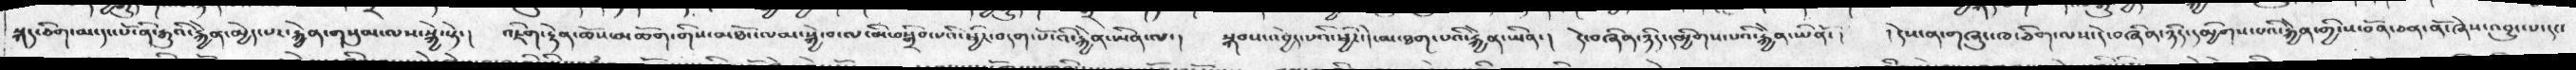སྐད་ཅིག་མ་དང་པོ་ནི་རྒྱུའི་རྐྱེན་མྱེད་པར་རྐྱེན་གསུམ་ལས་སྐྱེ་སྟེ་།  འཇིག་རྟེན་ཆོས་མཆོག་གིས་མཐོང་ལམ་སྐྱེ་བ་ལ་མི་བསྒྲིབ་པའི་ཕྱིར་བདག་པོ་འི་རྐྱེན་ཡིན་ལ་།  སྐབས་འབྱེད་པའི་ཕྱིར་དེ་མ་ཐག་པའི་རྐྱེན་ཡིན་།  དེ་བཞིན་ཉིད་དམྱིགས་པའི་རྐྱེན་ཡིནོ་།    །དེས་ན་གཞུང་ཁ་ཅིག་ལས་དེ་བཞིན་ཉིད་དམྱིགས་པའི་རྐྱེན་གྱི་ས་བོན་ཅན་ནོ་ཞེས་འབྱུང་པ་དང་
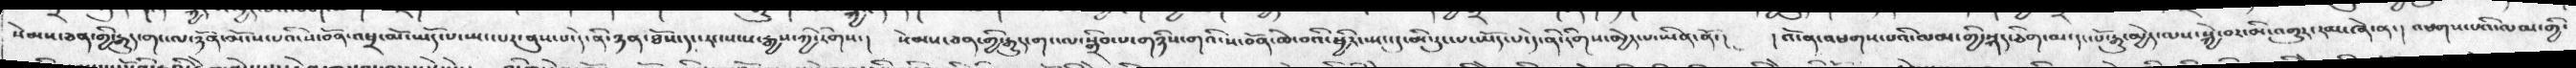སེམས་ཅན་གྱི་རྒྱུད་གང་ལ་ཉོན་མོངས་པའི་ས་བོན་འཕྲ་མོ་ཡོད་པ་སྤང་པར་ནུས་པ་དེ་ན་ཉན་ཐོས་དང་རང་སངས་རྒྱས་ཀྱི་རིགས་། སེམས་ཅན་གྱི་རྒྱུད་གང་ལ་སྒྲིབ་པ་གཉིས་གའི་ས་བོན་ཆེ་བའི་ཕྱིར་སྤང་དུ་མི་རུང་པ་ཡོད་པ་དེ་ན་རིགས་མྱེད་པ་ཡིན་ནོ་།  ། འོ་ན་འཕགས་པའི་ལམ་གྱི་སྐད་ཅིག་མ་དང་པོ་རྒྱུ་མྱེད་ལས་སྐྱེ་བར་མི་འགྱུར་རམ་ཞེ་ན་།  འཕགས་པའི་ལམ་གྱི་
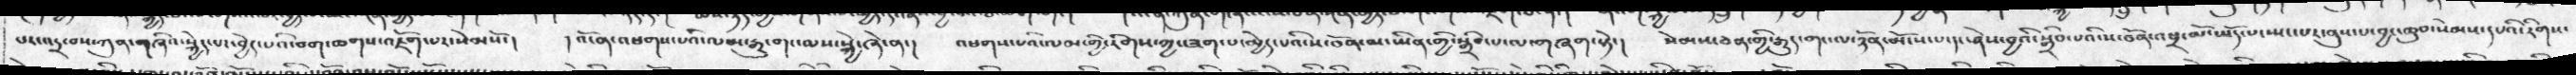པར་འདྲ་བས་ཀུན་གཞིའ་སྐྱེད་པར་བྱེད་པའི་བག་ཆགས་འཇོག་པར་སེམསོ་།  ། འོ་ན་འཕགས་པའི་ལམ་རྒྱུ་གང་ལས་སྐྱེ་ཞེ་ན་།  འཕགས་པའི་ལམ་གྱི་རིགས་ཀྱང་ཟག་པ་མྱེད་པའི་ས་བོན་མ་ཡིན་གྱི་སྒྲིབ་པ་ལ་གཞག་སྟེ་།  སེམས་ཅན་གྱི་རྒྱུད་གང་ལ་ཉོན་མོངས་པ་དང་ཤེས་བྱའི་སྒྲིབ་པའི་ས་བོན་འཕྲ་མོ་ཡོད་པ་སྤང་པར་ནུས་པ་བྱང་ཆུབ་སེམས་དཔའི་རིགས་
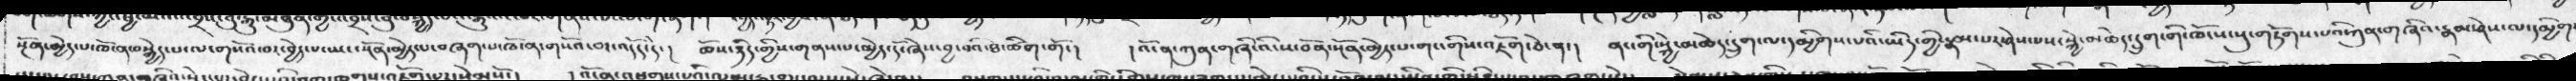སྔོན་མྱེད་པ་ཁོ་ན་བསྐྱེད་པ་ལ་གསོའ་བར་བྱེད་པ་ཡང་སྔོན་མྱེད་པ་བཞག་པ་ཁོ་ན་གསོའ་བར་འདོད་དེ་།  ཆོས་ཉིད་གྱིས་གནས་པ་མྱེད་དོ་ཞེས་བྱ་བའི་ཐ་ཚིག་གོ་།  །འོ་ན་ཀུན་གཞིའི་ས་བོན་སྔོན་མྱེད་པ་གང་གིས་འཇོག་ཅེ་ན་།  ནང་གི་སྐྱེ་མཆེད་དྲུག་ལ་དམྱིགས་པའི་ཡིད་གྱི་རྣམ་པར་ཤེས་པས་སྐྱེ་མཆེད་དྲུག་གི་ཁོངས་སུ་གཏོགས་པའི་ཀུན་གཞིའ་རྣམ་ཤེས་ལ་དམྱིག་
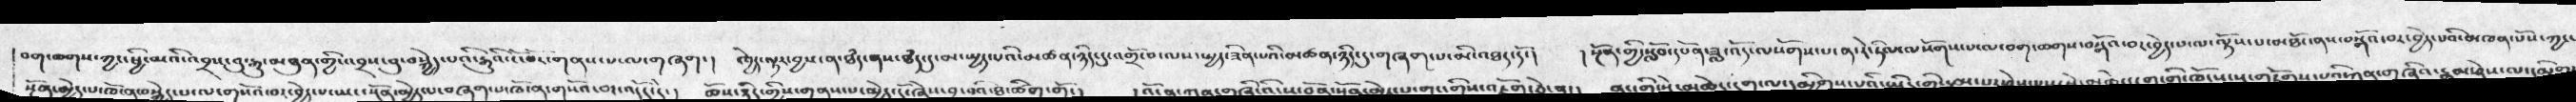བག་ཆགས་ཀྱང་ཕྱི་མའི་འབྲས་བུ་རྒྱུ་མཐུན་གྱི་འབྲས་བུ་བསྐྱེད་པའི་རྒྱུའི་ངོ་བོར་གནས་པ་ལ་གཞག་།  ཁྱེད་ལྟར་བྱས་ན་ཐཾད་ནས་ཐཾད་དུ་མ་སྤྱད་པའི་མཚན་ཉིད་དུ་འགྲོ་བ་ལས་སྤྱད་ཟིན་པའི་མཚན་ཉིད་དུ་གཞག་པ་མི་འཐད་དོ་།    ། སྔོན་གྱི་སློབ་དཔོན་ཟླ་འོད་ལསོགས་པ་ན་རེ་ཏིལ་ལསོགས་པ་ལ་བག་ཆགས་བསྒོའ་བ་ལ་ལྟོས་པ་མཐོང་ནས་བསྒོའ་བར་བྱེད་པའི་མཁན་པོས་ཀྱང་
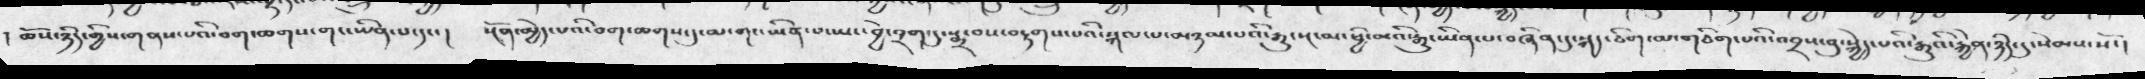།  ཆོས་ཉིད་ཀྱིས་གནས་པའི་བག་ཆགས་གང་ཡིན་པ་དང་།  སྔོན་མྱེད་པའི་བག་ཆགས་དུ་མ་གང་ཡིན་པ་ཡང་བྱེ་བྲག་དུ་སྨྲ་བས་བརྟགས་པའི་སྐལ་པ་མཉམ་པའི་རྒྱུ་སྔ་མ་ཕྱི་མའི་རྒྱུ་ཡིན་པ་བཞིན་དུ་སྐད་ཅིག་མ་གཅིག་པའི་འབྲས་བུ་སྐྱེད་པའི་རྒྱུའི་རྐྱེན་ཉིད་དུ་སེམས་སོ་།
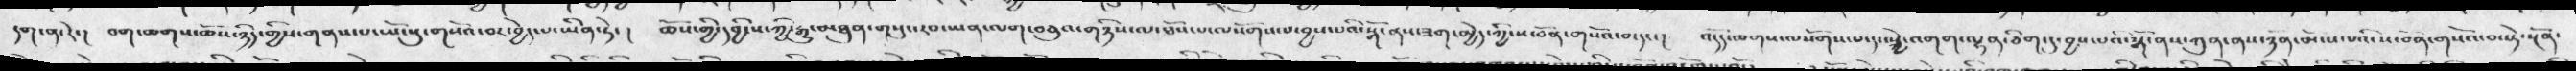དག་ན་རེ་།  བག་ཆགས་ཆོས་ཉིད་ཀྱིས་གནས་པ་ཡོངསུ་གསོའ་བར་བྱེད་པ་ཡིན་ཏེ་།  ཆོས་ཀྱི་དབྱིངས་ཀྱི་རྒྱུ་མཐུན་གསུང་རབ་ཡན་ལག་བཅུའ་གཉིས་ལ་ཐོས་པ་ལསོགས་པ་བྱས་པའི་སྒོ་ནས་ཟག་མྱེད་ཀྱི་ས་བོན་གསོའ་བ་དང་།   འདོད་ཆགས་ལསོགས་པ་དང་སྐྱེ་འགག་ལྷན་ཅིག་དུ་བྱས་པའི་སྒོ་ནས་ཀུན་ནས་ཉོན་མོངས་པའི་ས་བོན་གསོའ་བ་སྟེ་སྔོན་
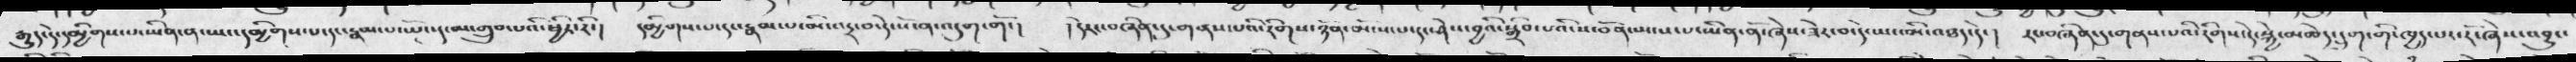རྒྱུད་དེ་དམྱིགས་པ་ཡིན་ན་ཡང་དམྱིགས་པ་དང་རྣམ་པ་ཡོངསུ་མ་གྲུབ་པའི་ཕྱིར་རོ་།  དམྱིགས་པ་དང་རྣམ་པར་མི་འདྲ་བ་དེ་སོ་ན་འདུག་གོ་།   ། དེ་རང་བཞིན་དུ་གནས་པའི་རིགས་པའི་རིགས་ཉོན་མོངས་པ་དང་ཤེས་བྱའི་སྒྲིབ་པའི་ས་བོན་སྤངས་པ་ཡིན་ནོ་ཞེས་ཟེར་བ་དེ་ཡང་མི་འཐད་དེ་།   རང་བཞིན་དུ་གནས་པའི་རིགས་དེ་སྐྱེ་མཆེད་དྲུག་གི་ཁྱད་པར་རོ་ཞེས་འབྱུང་
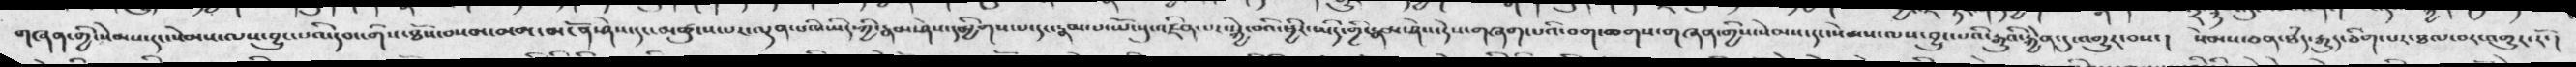གཞན་གྱི་སེམསདང་སེམས་ལས་བྱུང་པའི་དབང་གིས་ཐོས་བསམ་མམ་མངོན་ཤེས་དང་མཚུངས་པར་ལྡན་པའི་ཡིད་ཀྱི་རྣམ་ཤེས་དམྱིགས་པ་དང་རྣམ་པ་ཡོངསུ་འཛིན་པར་སྐྱེ་བའི་ཕྱིར་ཡིད་གྱི་རྣམ་ཤེས་དེས་གཞག་པའི་བག་ཆགས་གཞན་གྱིས་སེམས་དང་སེམས་ལས་བྱུང་པའི་རྒྱུའི་རྐྱེན་དུ་འགྱུར་བས་།  སེམས་ཅན་ཐཾད་རྒྱུད་ཅིག་པར་ཐལ་བར་འགྱུར་རོ་།       ༅`༹  ། ∵     ༌
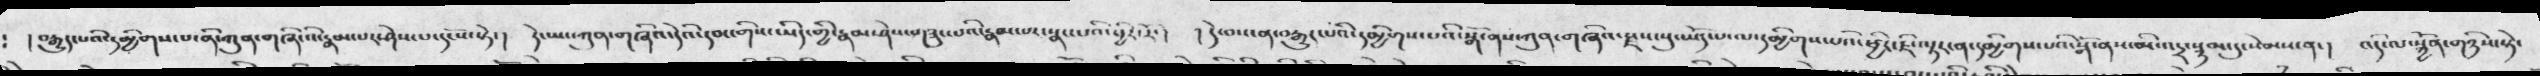།བརྒྱུད་པའི་དམྱིགས་པ་ནི་ཀུན་གཞི་འི་རྣམ་པར་ཤེས་པ་དངོས་སྟེ་།  དེ་ཡང་ཀུན་གཞིའ་དེའི་དབང་གིས་ཡིད་གྱི་རྣམ་ཤེས་གཟུང་པའི་རྣམ་པར་སྣང་པའི་ཕྱིར་རོ་།  ། དེ་བས་ན་བརྒྱུད་པའི་དམྱིགས་པའི་སྒོ་ནས་ཀུན་གཞིའ་རྫས་སུ་ཡོད་པ་ལ་དམྱིགས་པའི་ཕྱིར་ཇི་ལྟར་ན་དམྱིགས་པའི་སྒོ་ནས་མི་འདྲ་སྙམ་དུ་སེམས་ན་།  འདི་ལ་སྐྱོན་གཉིས་སྟེ་
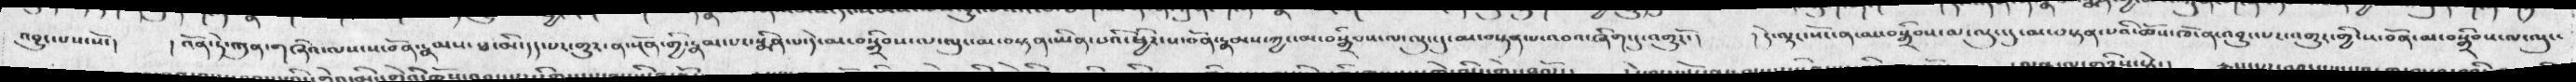འབྱུང་པས་སོ་།  ། འོན་ཏེ་ཀུན་གཞིའ་ལས་ས་བོན་རྣམས་པ་མི་དད་པར་གྱུར་ན་སྔོན་གྱི་རྣམ་པར་སྨིན་པ་དེ་མ་བསྒྲིབས་ལ་ལུང་མ་བསྟན་ཡིན་པའི་ཕྱིར་ས་བོན་རྣམས་ཀྱང་མ་བསྒྲིབས་ལ་ལུང་དུ་མ་བསྟན་པ་འབའ་ཞིག་དུ་འགྱུརོ་།  །དེ་ལྟར་སོང་ན་མ་བསྒྲིབས་མ་ལུང་དུ་མ་བསྟན་པའི་ཆོས་ཁོ་ན་འབྱུང་པར་འགྱུར་གྱི་ས་བོན་མ་བསྒྲིབས་ལ་ལུང་
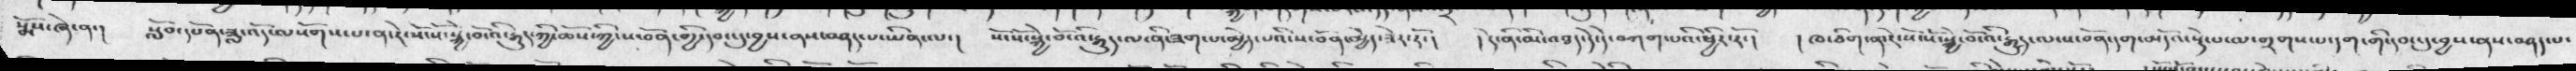སྨོས་ཞེ་ན་།   སློབ་དཔོན་ཟླ་འོད་ལསོགས་པ་ན་རེ་སོ་སོ་སྐྱེ་བོའི་རྒྱུད་ཀྱི་ཆོས་ཀྱི་ས་བོན་གྱི་དབང་དུ་བྱས་ནས་བཤད་པ་ཡིན་ལ་།  སོ་སོ་སྐྱེ་བོ་འི་རྒྱུད་ལ་ནི་ཟག་པ་མྱེད་པའི་ས་བོན་མྱེད་ཟེར་རོ་།   ། དེ་ནི་མི་འཐད་དེ་དེ་བཀག་པའི་ཕྱིར་རོ་།  ། ཁ་ཅིག་ན་རེ་སོ་སོ་སྐྱེ་བོའི་རྒྱུད་ལ་ས་བོན་དག་མདོའ་སྡེ་པ་ལ་གྲགས་པ་དག་གི་དབང་དུ་བྱས་ནས་བཤད་པ་
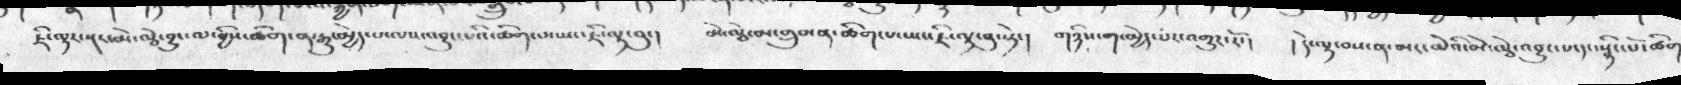ཇི་ལྟར་སྔ་མེ་ལྕེ་བྱུང་ལ་གྱིས་ཚིག་ན་རྒྱུ་མྱེད་པ་ལས་འབྱུང་པའི་ཆིག་པ་ཡང་ཇི་ལྟ་བུ་།  མེ་ལྕེ་མ་གྲུབ་ན་ཆིག་པ་ཡང་ཇི་ལྟ་བུ་སྟེ་།  གཉིས་ག་མྱེད་པར་འགྱུར་རོ་།  ། དེ་ལྟ་བས་ན་མང་ཆེའི་མེ་ལྕེ་འབྱུང་པ་དང་སྙིང་པོ་ཚིག
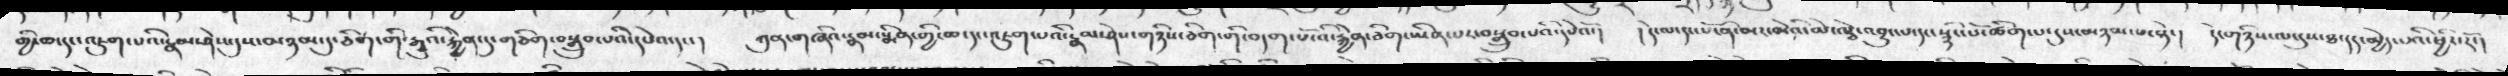གྱི་ཆ་དང་འཇུག་པའི་རྣམ་ཤེས་དུ་མཉམ་དུ་ཅིག་གི་རྒྱུའི་རྐྱེན་དུ་གཅིག་བསྒྲུབ་པའི་དཔེའ་དང་།  ཀུན་གཞིའ་རྣམ་སྨིན་གྱི་ཆ་དང་འཇུག་པའི་རྣམ་ཤེས་གཉིས་ཅིག་གི་བདག་པོ་འི་རྐྱེན་ཅིག་ཡིན་པར་བསྒྲུབ་པའི་དཔེའོ་།  །དེ་ལ་དང་པོ་ནི་མར་མེའི་མེ་ལྕེ་འབྱུང་པ་དང་སྙིང་པོ་ཚིག་པ་དུས་མཉམ་པ་སྟེ་།  དེ་གཉིས་ལ་དུས་ཐ་དད་མྱེད་པའི་ཕྱིར་རོ་།
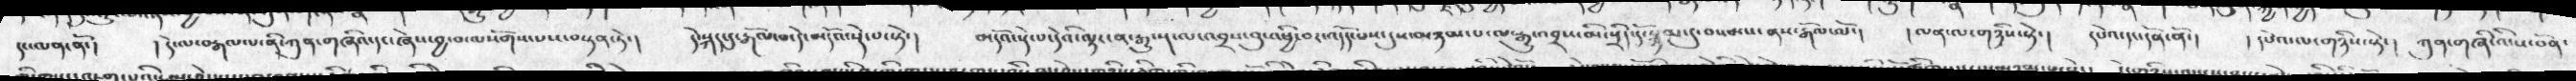དང་ལན་ནོ་།  ། དེ་ལ་བརྒལ་པ་ནི་ཀུན་གཞིའ་དང་ཞེས་བྱ་བ་ལསོགས་པས་བསྟན་ཏེ་།  དེ་སྐད་དུ་རྒོལ་བ་དེ་མདོའ་སྡེ་པ་སྟེ་།  མདོའ་སྡེ་པ་དེའི་ལྟར་ན་རྒྱུ་སྔ་མ་ལ་འབྲས་བུ་འཕྱི་བར་འདོད་པས་དུ་མཉམ་པ་ལ་རྒྱུ་འབྲས་མི་སྲིད་དོ་སྙམ་དུ་བསམས་ན་རྒོལ་ལོ་།  །ལན་ལ་གཉིས་སྟེ་།  དཔེའ་དང་དོན་ནོ་།   ། དཔེའ་ལ་གཉིས་སྟེ་།  ཀུན་གཞིའི་ས་བོན་
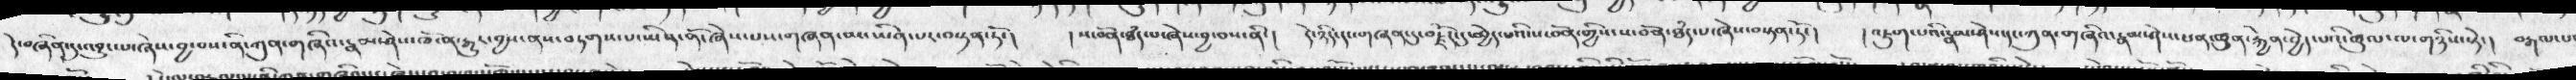དེ་བཞིན་དུ་འབྱུང་པ་ཞེས་བྱ་བས་ནི་ཀུན་གཞིའ་རྣམ་ཤེས་ཁོ་ན་རྒྱུར་བྱས་ནས་བཏགས་པ་ཡིན་ནོ་ཞེས་པས་གཞན་མ་ཡིན་པར་བསྟན་ཏོ་།  ། ས་བོན་ཐཾད་པ་ཞེས་བྱ་བས་ནི་།  དེ་ཉིད་དང་གཞན་དུ་བརྗོད་དུ་མྱེད་པའི་ས་བོན་གྱིས་ས་བོན་ཐཾད་པ་ཞེས་བསྟན་ཏོ་།  །འཇུག་པའི་རྣམ་ཤེས་དང་ཀུན་གཞིའ་རྣམ་ཤེས་ཕན་ཚུན་རྐྱེན་བྱེད་པའི་ཚུལ་ལ་གཉིས་སྟེ་།  བརྒལ་པ་
